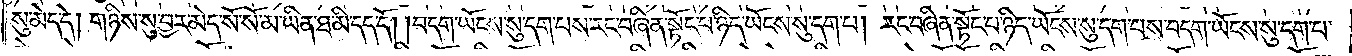སུ་མེད་དེ། གཉིས་སུ་བྱར་མེད་སོ་སོ་མ་ཡིན་ཐ་མི་དད་དོ། །བདག་ཡོངས་སུ་དག་པས་རང་བཞིན་སྟོང་པ་ཉིད་ཡོངས་སུ་དག་པ། རང་བཞིན་སྟོང་པ་ཉིད་ཡོངས་སུ་དག་པས་བདག་ཡོངས་སུ་དག་པ་
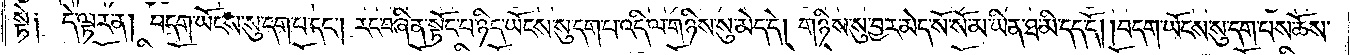སྟེ༑ དེ་ལྟར་ན། བདག་ཡོངས་སུ་དག་པ་དང༌། རང་བཞིན་སྟོང་པ་ཉིད་ཡོངས་སུ་དག་པ་འདི་ལ་གཉིས་སུ་མེད་དེ། གཉིས་སུ་བྱར་མེད་སོ་སོ་མ་ཡིན་ཐ་མི་དད་དོ། །བདག་ཡོངས་སུ་དག་པས་ཆོས་
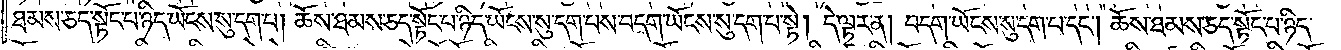ཐམས་ཅད་སྟོང་པ་ཉིད་ཡོངས་སུ་དག་པ། ཆོས་ཐམས་ཅད་སྟོང་པ་ཉིད་ཡོངས་སུ་དག་པས་བདག་ཡོངས་སུ་དག་པ་སྟེ། དེ་ལྟར་ན། བདག་ཡོངས་སུ་དག་པ་དང༌། ཆོས་ཐམས་ཅད་སྟོང་པ་ཉིད་
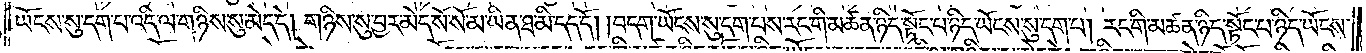ཡོངས་སུ་དག་པ་འདི་ལ་གཉིས་སུ་མེད་དེ། གཉིས་སུ་བྱར་མེད་སོ་སོ་མ་ཡིན་ཐ་མི་དད་དོ། །བདག་ཡོངས་སུ་དག་པས་རང་གི་མཚན་ཉིད་སྟོང་པ་ཉིད་ཡོངས་སུ་དག་པ། རང་གི་མཚན་ཉིད་སྟོང་པ་ཉིད་ཡོངས་
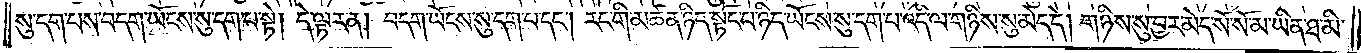སུ་དག་པས་བདག་ཡོངས་སུ་དག་པ་སྟེ། དེ་ལྟར་ན། བདག་ཡོངས་སུ་དག་པ་དང༌། རང་གི་མཚན་ཉིད་སྟོང་པ་ཉིད་ཡོངས་སུ་དག་པ་འདི་ལ་གཉིས་སུ་མེད་དེ། གཉིས་སུ་བྱར་མེད་སོ་སོ་མ་ཡིན་ཐ་མི་
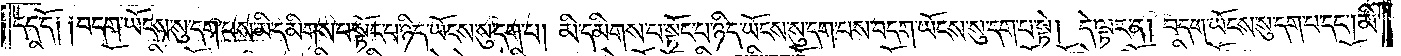དད་དོ། །བདག་ཡོངས་སུ་དག་པས་མི་དམིགས་པ་སྟོང་པ་ཉིད་ཡོངས་སུ་དག་པ། མི་དམིགས་པ་སྟོང་པ་ཉིད་ཡོངས་སུ་དག་པས་བདག་ཡོངས་སུ་དག་པ་སྟེ། དེ་ལྟར་ན། བདག་ཡོངས་སུ་དག་པ་དང༌། མི་
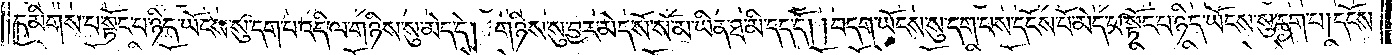དམིགས་པ་སྟོང་པ་ཉིད་ཡོངས་སུ་དག་པ་འདི་ལ་གཉིས་སུ་མེད་དེ། གཉིས་སུ་བྱར་མེད་སོ་སོ་མ་ཡིན་ཐ་མི་དད་དོ། །བདག་ཡོངས་སུ་དག་པས་དངོས་པོ་མེད་པ་སྟོང་པ་ཉིད་ཡོངས་སུ་དག་པ། དངོས་
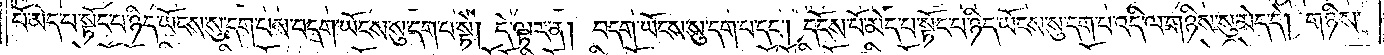པོ་མེད་པ་སྟོང་པ་ཉིད་ཡོངས་སུ་དག་པས་བདག་ཡོངས་སུ་དག་པ་སྟེ། དེ་ལྟར་ན། བདག་ཡོངས་སུ་དག་པ་དང༌། དངོས་པོ་མེད་པ་སྟོང་པ་ཉིད་ཡོངས་སུ་དག་པ་འདི་ལ་གཉིས་སུ་མེད་དེ། གཉིས་
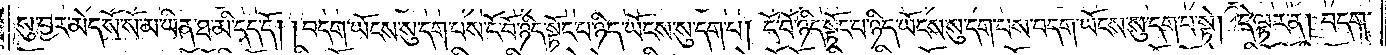སུ་བྱར་མེད་སོ་སོ་མ་ཡིན་ཐ་མི་དད་དོ། །བདག་ཡོངས་སུ་དག་པས་ངོ་བོ་ཉིད་སྟོང་པ་ཉིད་ཡོངས་སུ་དག་པ། ངོ་བོ་ཉིད་སྟོང་པ་ཉིད་ཡོངས་སུ་དག་པས་བདག་ཡོངས་སུ་དག་པ་སྟེ། དེ་ལྟར་ན། བདག་
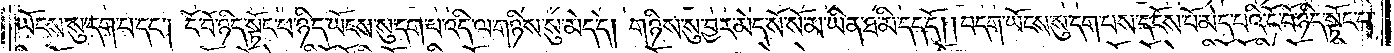ཡོངས་སུ་དག་པ་དང༌། ངོ་བོ་ཉིད་སྟོང་པ་ཉིད་ཡོངས་སུ་དག་པ་འདི་ལ་གཉིས་སུ་མེད་དེ། གཉིས་སུ་བྱར་མེད་སོ་སོ་མ་ཡིན་ཐ་མི་དད་དོ། །བདག་ཡོངས་སུ་དག་པས་དངོས་པོ་མེད་པའི་ངོ་བོ་ཉིད་སྟོང་པ་
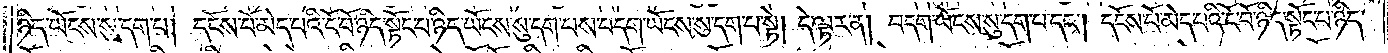ཉིད་ཡོངས་སུ་དག་པ། དངོས་པོ་མེད་པའི་ངོ་བོ་ཉིད་སྟོང་པ་ཉིད་ཡོངས་སུ་དག་པས་བདག་ཡོངས་སུ་དག་པ་སྟེ། དེ་ལྟར་ན། བདག་ཡོངས་སུ་དག་པ་དང༌། དངོས་པོ་མེད་པའི་ངོ་བོ་ཉིད་སྟོང་པ་ཉིད་
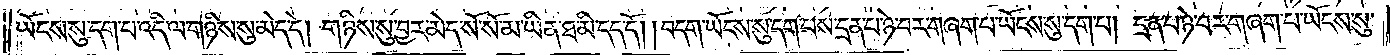ཡོངས་སུ་དག་པ་འདི་ལ་གཉིས་སུ་མེད་དེ། གཉིས་སུ་བྱར་མེད་སོ་སོ་མ་ཡིན་ཐ་མི་དད་དོ། །བདག་ཡོངས་སུ་དག་པས་དྲན་པ་ཉེ་བར་བཞག་པ་ཡོངས་སུ་དག་པ། དྲན་པ་ཉེ་བར་བཞག་པ་ཡོངས་སུ་
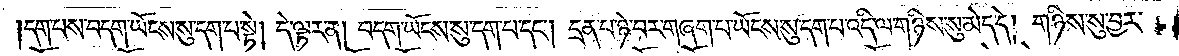དག་པས་བདག་ཡོངས་སུ་དག་པ་སྟེ། དེ་ལྟར་ན། བདག་ཡོངས་སུ་དག་པ་དང༌། དྲན་པ་ཉེ་བར་བཞག་པ་ཡོངས་སུ་དག་པ་འདི་ལ་གཉིས་སུ་མེད་དེ། གཉིས་སུ་བྱར་
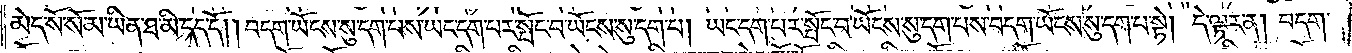མེད་སོ་སོ་མ་ཡིན་ཐ་མི་དད་དོ། །བདག་ཡོངས་སུ་དག་པས་ཡང་དག་པར་སྤོང་བ་ཡོངས་སུ་དག་པ། ཡང་དག་པར་སྤོང་བ་ཡོངས་སུ་དག་པས་བདག་ཡོངས་སུ་དག་པ་སྟེ། དེ་ལྟར་ན། བདག་
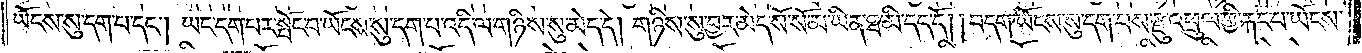ཡོངས་སུ་དག་པ་དང༌། ཡང་དག་པར་སྤོང་བ་ཡོངས་སུ་དག་པ་འདི་ལ་གཉིས་སུ་མེད་དེ། གཉིས་སུ་བྱར་མེད་སོ་སོ་མ་ཡིན་ཐ་མི་དད་དོ། །བདག་ཡོངས་སུ་དག་པས་རྫུ་འཕྲུལ་གྱི་རྐང་པ་ཡོངས་
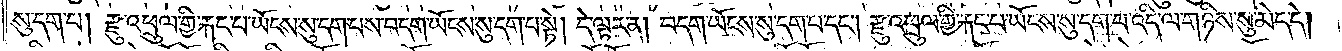སུ་དག་པ། རྫུ་འཕྲུལ་གྱི་རྐང་པ་ཡོངས་སུ་དག་པས་བདག་ཡོངས་སུ་དག་པ་སྟེ། དེ་ལྟར་ན། བདག་ཡོངས་སུ་དག་པ་དང༌། རྫུ་འཕྲུལ་གྱི་རྐང་པ་ཡོངས་སུ་དག་པ་འདི་ལ་གཉིས་སུ་མེད་དེ།
